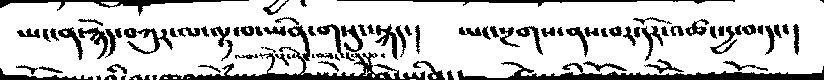ཡང་ན་རྙེད་བཀུར་ལ་ལྟ་བ་ཡིན་གསུང་སྐད་།   ཡང་སྔགས་ནས་བར་དོར་འཚང་དྱ་བ་དང་།
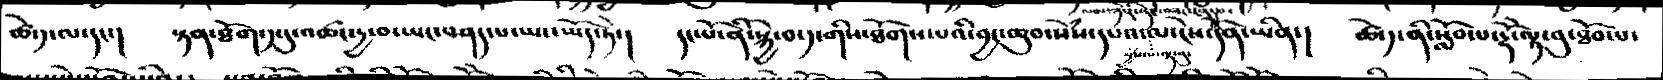ཚེ་༡་ལ་དང་།  སྟན་ཐོག་༡་དུ་འཚང་དྱ་བ་ཡང་བཤད་པ་ཡང་ཡོད་ཏེ་།  དང་པོ་ནི་སྐྱེ་བ་༡་གིས་ཐོགས་པའི་བྱང་ཆུབ་སེཾས་དཔའ་ལ་ངེས་དོན་ཡིན་།  ཚེ་༡་ནི་སློབ་པ་རྡོེ་ལྟ་བུ་ཐོབ་པ་
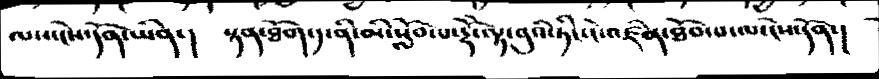ལས་ངེས་དོན་ཡིན་།   སྟན་ཐོག་༡་ནི་མི་སློབ་པ་རྡོེ་ལྟ་བུའི་ཏིང་ངེ་འཛིན་ཐོབ་པ་ལ་ངེས་དོན་།
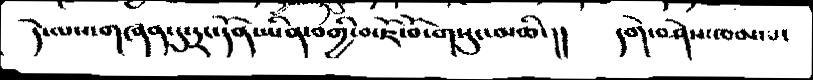དེ་ལས་གཞན་དུ་དྲང་དོན་ཡིན་བགྱི་བ་ཇོ་བོ་གསུང་མཆི་།།   དགེ་བཤེས་ཁམ་པ་
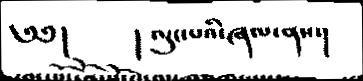༄༅།    །  ལུང་པའི་ཞལ་ནས་།
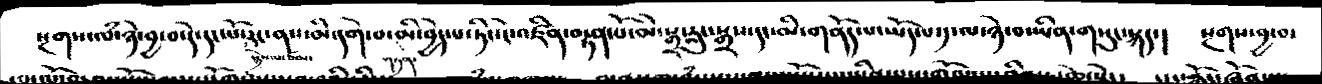སྔགས་ལཾ་ཉེ་བྱ་བ་དེ་དང་པོ་སྙེས་པ་ཙམ་རང་ནས་མི་དགེ་བ་མི་བྱེད་པ་ཏིང་ངེ་འཛིན་བརྟན་པོ་མེ་སྒྲ་རླུང་སྒྲས་དང་མི་གནོད་པ་ཡོད་པ་༡་ལ་ཉེ་བ་ཡིན་གསུང་སྐད་།  སྔགས་བྱ་བ་
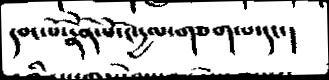དབང་པོ་རྣོན་པོ་ང་དྱལ་གཅག་པ་དང་།
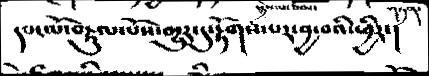དབང་པོ་བརྟུལ་པོས་མྱུར་དུ་རྟོགས་པར་བྱ་བའི་ཕྱིར་།
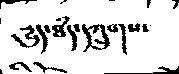དྱུད་ཐཾད་དཀྲུགས་
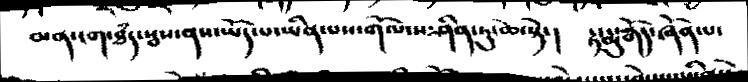མན་ངག་ཐཾད་སྦས་ནས་ཡོད་པ་ཡིན་པས་གོལ་ས་ཤིན་ཏུ་ཆེ་བ་སྟེ་།  རྟ་རྨུ་རྒོད་ཞོན་པ་
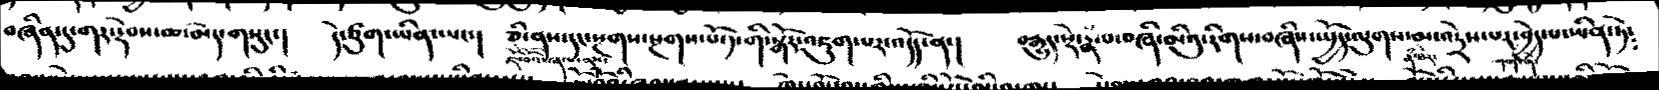བཞིན་དུ་གར་རྡེབས་ཆ་མེད་གསུང་།  དེ་ཙུག་ཡིན་ཡང་།  ཅི་ནས་དང་སྔགས་སྔགས་པོ་༡་གི་སྒོར་འཇུག་པར་འདོད་ན་།   བརྒྱུད་སྡེ་རྣ་བ་བཞི་མིའུ་རིགས་བཞིས་སྤྱོད་ལུགས་མ་འདྲེས་པར་བྱེད་པ་ཡིན་ཏེ༴
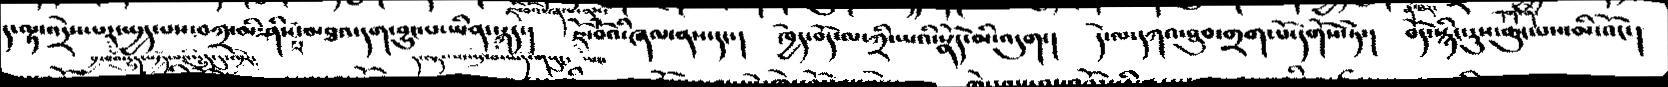ད་ལྟ་འདྲེས་པར་སྤྱད་པས་བཀྲ་མི་ཤིས་པ་མཐའ་དག་བྱུང་པ་ཡིན་སྐད་།  ཇོ་བོའི་ཞལ་ནས་དང་།   ཁྱེད་བོད་ལ་ཀྲིང་པའི་སྣོད་མི་འདུག་།  དེ་ལ་དཀའ་ཐུབ་གྲག་པོ་དགོས་ཏེ་།  བོད་སྙིང་རུས་ཆུང་པས་མི་འོང་།
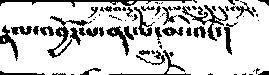རྣལ་འབྱོར་པ་ནང་བོད་མི་འོང་།
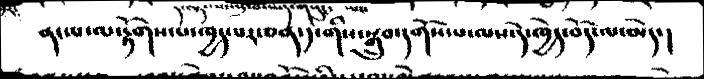ནང་པ་ལ་རྟོགས་པ་ཁྱད་པར་ཅན་༡་གིས་སྒྲུབ་དགོས་པ་ལས་དེ་ཁྱེད་བོད་ལ་མེད་།
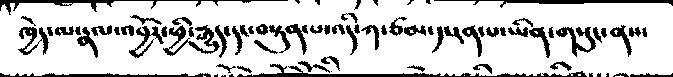ཁྱེད་ལ་རྣལ་འབྱོར་ཕྱི་རྒྱུད་དང་བསྟུན་པ་འདི་ཀ་ཙམ་༡སན་པ་ཡིན་གསུང་ནས་
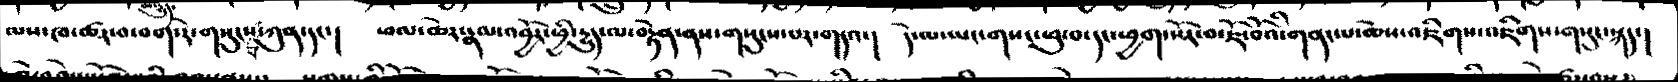ལས་ཁ་ཚར་བ་བག་རེ་གསུངས་པ་ཀུན་དང་།  ཕལ་ཆེར་རྣལ་འབྱོར་ཕྱི་དྱུད་ལ་བརྟེན་ནས་གསུངས་པར་གདའ་།  དེ་ལ་ཡང་གསང་ཕུ་བ་དང་ཕྱག་སོར་བ་ཇོ་བོའི་གནང་པ་ཆེས་འཇིགས་འཇིགས་གསུང་སྐད་།
